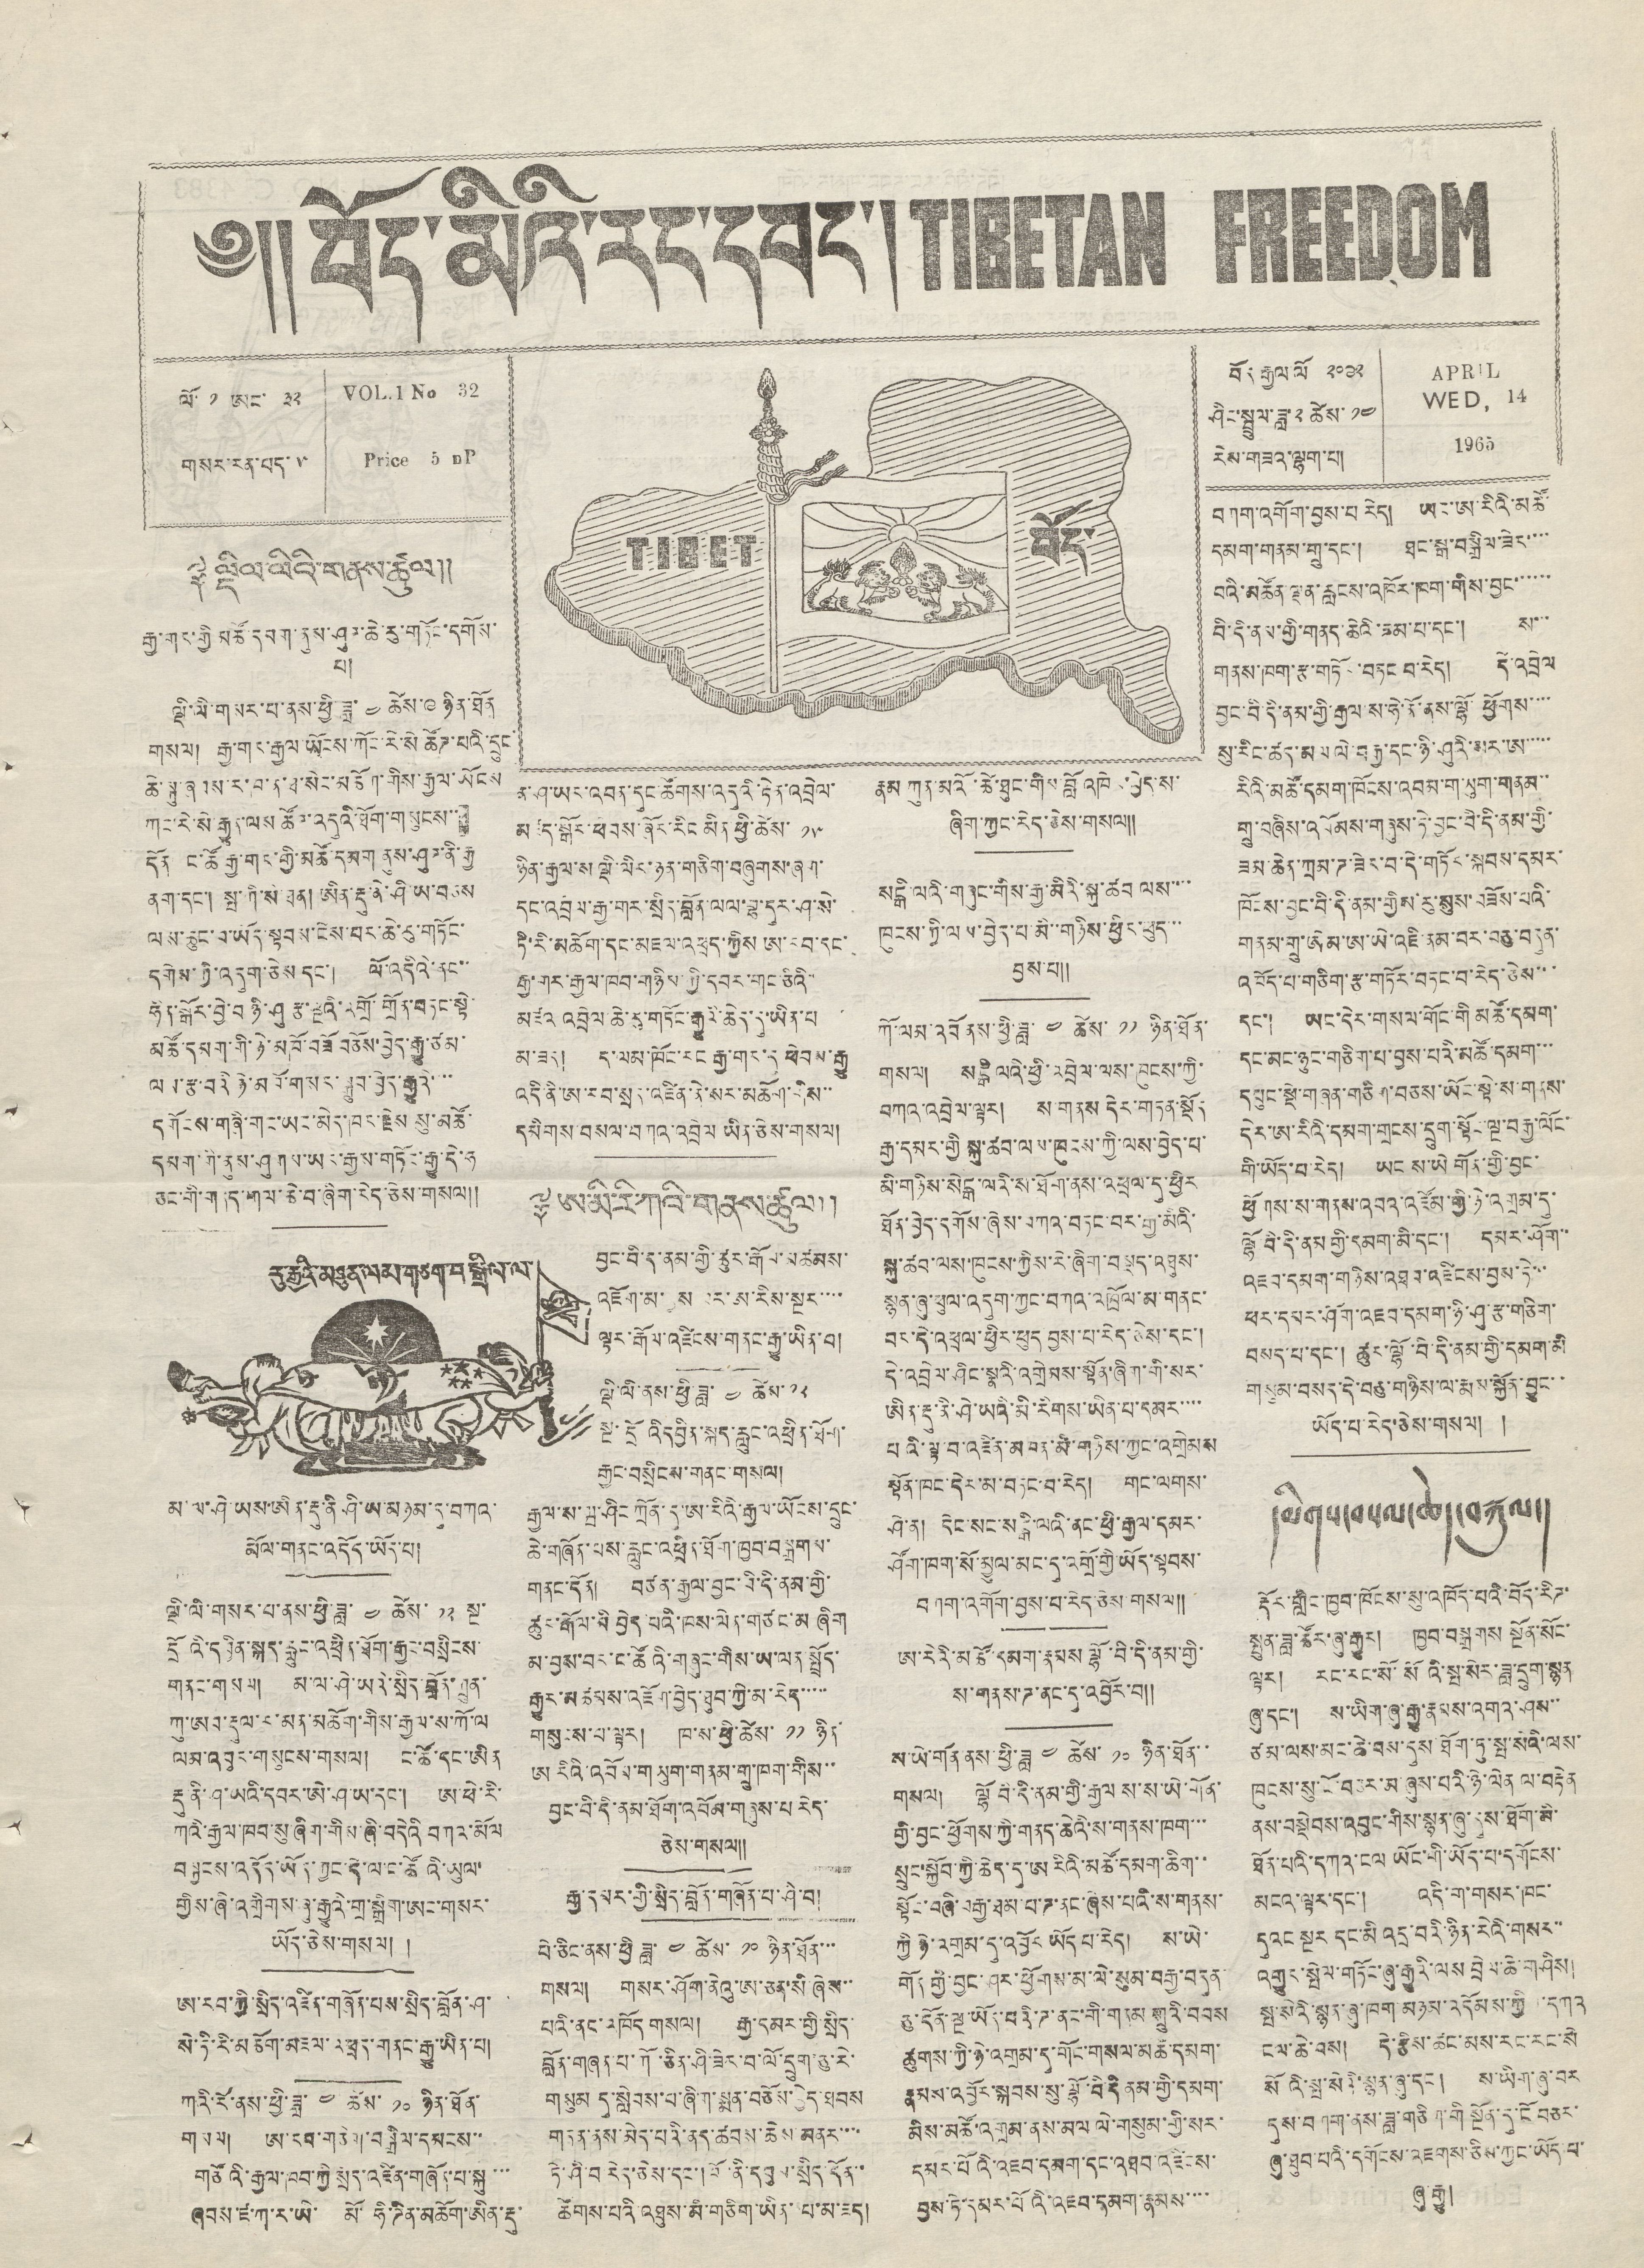༄།། བོད་མིའི་རང་དབང་། TIBETAN FREEDOM
TIBET བོད་
ལོ་ ༡ ཨང་ ༣༢
གསར་རན་པད་ ༥
VOL. 1 No 32
Price 5 nP
APRIL
WED, 14
1965
བོད་རྒྱལ་ལོ་ ༢༠༩༢
ཤིང་སྦྲུལ་ཟླ་༢ ཚེས་ ༡༤
རེས་གཟའ་ལྷག་པ།
༈ ལྡིལ་ལིའི་གནས་ཚུལ།།
རྒྱ་གར་གྱི མཚོ་དམག་ནུས་ཤུཌ་ཆེ་རུ་གཏོང་དགོས་
པ།
ལྡི་ལི་གསར་པ་ནས་ཕྱི་ཟླ་ ༤ ཚེས་༩ ཉིན་ཐོན
གསལ། རྒྱ་གར་རྒྱལ ཡོངས་ཀོང་རེ་སེ ཚོཌ་པའི་དྲུང
ཆེ་སྐུ་ཞབས་ར་ཁ་ན་ཐ་སེང་མཆོག་གིས་རྒྱལ་ཡོངས
ཀང་རེ་སེ་རྒྱུད་ལས་ཚོཌ་འདུའི་ཐོག་གསུངས་་
དོན ང་ཚོའི་རྒྱ་གར་གྱི་མཚོ་དམག ནུས་ཤུཌ་ནི་རྒྱ
ནག་དང་། སྤ་ཀི་སི་ཐན། ཨིན་རྡུ་ནེ་ཤི་ཡ་བཅས
ལས་ཆུང་བ་ཡོད་སྟབས་ངེས་པར་ཆེ་རུ་གཏོང་
དགེས་ཀྱི་འདུག་ཅེས དང་། ལོ་འདིའི་ནང་་
ཧིན་སྒོར་བྱེ་བ་ཉི་ཤུ རྩ་ལྔའི་འགྲོ་གྲོན་བཏང་སྟེ་
མཚོ་དམག་གི་ཉེ་མཁོ་བཟོ བཅོས་བྱེད་རྒྱུ་ཙམ་
ལས་རྩ་བའི ཉི་མ་ཁོ་གསར་སྒྲུབ་བྱེད་རྒྱུའི་་་་
དགོངས་གཞི་གང་ཡང་མེད་ཁར་རྗེས སུ་མཚོ་
དམག་གི་ནུས་ཤུགས་ཡར་རྒྱས་གཏོང་རྒྱུ་དེ་ཧ་
ཅང་གི་གནད་གལ་ཆེ་བ་ཞིག་རེད་ཅེས་གསལ།།
རུ་རྒྱའི་མཐུན་ལམ་གཙག་བསྒྲིལ་ལ་
མ་ལ་ཤེ་ཡས་ཨིན་རྡུ་ནི ཤི་ཡ་མཉམ་དུ་བཀའ་
མོལ་གནང་འདོད་ཡོད་པ།
ལྡི་ལི་གསར་པ་ནས་ཕྱི་ཟླ་ ༤ ཚེས་ ༡༢ སྔ་
དྲོ འི་དབྱིན་སྐད་རླུང་འཕྲིན་ཐོག་རྒྱང་བསྲིངས་
གནང་གསལ། མ་ལ་ཤེ་ཡའི་སྲིད་བློན་ཀྲུན་
ཀུ་ཨབ་རྡུལ་ར་མན་མཆོག་གིས་རྒྱལ་ས་ཀོ་ལ
ལམ་འབུལ་གསུངས་གསལ། །ང་ཚོ་དང་ཨིན
རྡུ ནི་ཤ་ཡའི་དབར་ཨེ་ཤ་ཡ་དང་། ཨ་ཕེ་རི་
ཀའི་རྒྱལ་ཁབ་སུ་ཞིག་གིས་ཞི་བདེའི བཀའ་མོལ
བསྐྱངས་འདོད་ཡོད་ཀྱང་དེ་ལ་ང་ཚོ འི་ཡུལ་
གྱིས་ཞི་འགྲིགས་ཞུ་རྒྱུའི་གྲ་སྒྲིག་ཨང་གསར་
ཡོད་ཅེས་གསལ། །
ཨ་རབ་ཀྱི་སྲིད་འཛིན་གཞོན་པས་སྲིད་བློན་ཤ་
སེ་ཏི་རི་མཆོག་མཇལ་འཕྲད་གནང་རྒྱུ་ཡིན་པ།
ཀའི་རོ་ནས་ཕྱི་ཟླ་ ༤ ཚེས་ ༡༠ ཉིན་ཐོན་
གསལ། ཨ་རབ་གཅིག་བསྒྲིལ་དམངས་་
གཙོ འི་རྒྱལ་ཁབ་ཀྱི་སྲིད་འཛིན་གཞོན་པ་སྐུ་་་
ཞབས་ཛ་ཀ་ར་ཡི་ མོ་ཧི་ཌིན་མཆོག་ཨིན་རྡུ་
ན་ཤ་ཡར་འབན་དུང་ཚོགས་འདུའི་རྟེན་འབྲེལ་
མཛད་སྒོར་ཕེབས་ཞོར་རིང་མིན་ཕྱི་ཚེས་ ༡༥
ཉིན་རྒྱལ་ས་ལྡི་ལིར་ཉན་གཅིག་བཞུགས་ཞག་
དང་འབྲེལ་རྒྱ་གར་སྲིད་བློན་ལལ་བྷ་དུར་ཤ་སེ་
ཏི་རི་མཆོག་དང་མཇལ་འཕྲད་ཀྱིས ཨ་རབ་དང་
རྒྱ་གར་རྒྱལ་ཁབ་གཉིས་ཀྱི་དབར་དང་ཅིའི་
མཛའ འབྲེལ་ཆེ་རུ་གཏོང་རྒྱུའི་ཆེད་དུ་ཡིན་པ
མ་ཟད། ད་ལམ་ཁོང་རང རྒྱ་གར་དུ ཕེབས་རྒྱུ་
འདི་ནི་ཨ་རབ་སྲན་འཛིན་ནེ་སར་མཆོག་གིས་་
དམིགས་བསལ་བཀའ་འབྲེལ ཡིན་ཅེས་གསལ།
༈ ཨ་མི་རི་ཀའི་གནས་ཚུལ།།
བྱང་བི་ད་ནམ་གྱི་ཚུར་རྒོལ་མཚམས་
འཇོག་མ་བྱས་ཐར་ཨ་རིས་སྔར་་་་
ལྟར་རྒོལ་འཛིངས་གནང་རྒྱུ་ཡིན་པ།
ལྡི་ལི་ནས་ཕྱི་ཟླ་ ༤ ཚེས་༡༢
སྔ་དྲོ འིདབྱིན་སྐད་རླུང་འཕྲིན་ཐོག་
རྒྱང་བསྲིངས་གནང་གསལ།
རྒྱལ་ས་ཝ་ཤིང་ཀྲོན་དུ་ཨ་རིའི་རྒྱལ་ཡོངས་དྲུང་
ཆེ་གཞོན་པས་རླུང་འཕྲིན་ཐོག་ཁྱབ་བསྒྲགས་
གནང་དོན། བཙན་རྒྱལ་བྱང་བི་དི་ནམ་གྱི་
ཚུར་རྒོལ་མི བྱེད་པའི་ཁས་ལེན་གཙང་མ ཞིག
མ་བྱས་བར་ང་ཚོའི་གཞུང་གིས་ཡ་ལན་སྤྲོད་
རྒྱུར་མཚམས་འཇོག་བྱེད་ཐུབ་ཀྱི་མ་རེད་་་་་
གསུངས་པ་ལྟར། ཁ་ས་ཕྱི་ཚེས་ ༡༡ ཉིན་
ཨ་རིའི་འབོམ་གཡུག་གནམ་གྲུ་ཁག་གིས་་
བྱང་བི་དི་ནམ་ཐོག་འབོམ་གཞུས་པ་རེད་
ཅེས་གསལ།།
རྒྱ་དམར་གྱི་སྲིད་བློན་གཞོན་པ་ཤི་བ།
པེ་ཅིང་ནས་ཕྱི ཟླ་ ༤ ཚེས་ ༡༠ ཉིན་ཐོན་་་
གསལ། གསར་ཤོག་ནེའུ་ཨ་ཅན་སི་ཞེས་་
པའི་ནང་འཁོད་གསལ། རྒྱ་དམར་གྱི་སྲིད་
བློན་གཞན་པ་ཀོ་ཅིན་ཤི་ཟེར་བ་ལོ་དྲུག་ཅུ་རེ་
གསུམ དུ་སླེབས་པ་ཞིག་སྨན་བཅོས་བྱེད་ཐབས
གཏན་ནས་མེད་པའི་ནད་ཚབས་ཆེས མནར་་་་
ཏེ་ཤི་བ་རེད་ཅེས་དང་།བོ་ནི་དབུས་སྲིད་དོན་་
ཚོགས་པའི་འཐུས་མི་གཅིག་ཡིན་པ་མ་ཟད།
རྣམ ཀུན་མའོ་ཚེ་ཐུང་གིས བློ འཁེར་བྱེད་ས་
ཞིག་ཀྱང་རེད་ཅེས་གསལ།།
སངྒི་ལའི་གཞུང་གིས་རྒྱ་མིའི་སྐུ་ཚབ ལས་་་་
ཁུངས་ཀྱི་ལས་བྱེད་པ་མི་་གཉིས་ཕྱིར་ཕུད་་་
བྱས་པ།།
ཀོ་ལམ་འབོ ནས་ཕྱི་ཟླ་ ༤ ཚེས་ ༡༡ ཉིན་ཐོན་
གསལ། སངྒི ལའི་ཕྱི་འབྲེལ་ལས་ཁུངས་ཀྱི་
བཀའ་འབྲེལ་ལྟར། ས་གནས དེར་གཏན་སྡོད
རྒྱ་དམར་གྱི་སྐུ་ཚབ་ལས་ཁུངས་ཀྱིས་ལས་བྱེད་པ་
མི་གཉིས་སེངྒ་ལའི་ས་ཐོག་ནས་འཕྲལ་དུ་ཕྱིར
ཐོན་བྱེད་དགོས་ཞེས་བཀའ་བཏང་བར་རྒྱ་མིའི་
སྐུ་ཚབ་ལས་ཁུངས་ཀྱིས་རེ་ཞིག་བསྡད་འཐུས་
སྙན་ཞུ་ཕུལ་འདུག་ཀྱང་བཀའ་འཁྲོལ་མ་གནང་
བར་དེ་འཕྲལ་ཕྱིར་ཕུད་བྱས་པ་རེད་ཅེས་དང་།
དེ་འབྲེལ་ཤིང་སྣའི་འགྲེམས་སྟོན་ཞིག་གི་སར་
ཨིན་རྡུའི་ནི་ཤེ་ཡའི་མི་རིགས་ཡིན་པ་དམར་་་་
པའི་ལྟ་བ་འཛིན་མཁན་མི་གཉིས་ཀྱང་འགྲེམས
སྟོན་ཁང་དེར་མ་བཏང་བ་རེད། གང་ལགས་
ཤེ་ན། དེང་སང་སངྒི་ལའི་ནང་ཕྱི་རྒྱལ་དམར་
ཤོག་ཁག་སོ་མྱུར་མང་དུ་འགྲོ་གྱི་ཡོད་སྟབས་
བཀག་འགོག་བྱས་པ་རེད་ཅེས་གསལ།།
ཨ་རིའི་མཚོ་དམག་རྣམས་ལྷོ་བི་དི་ནམ་གྱི་
ས་གནས་ཌ་ནང་དུ་འབྱོར་བ།།
ས་ཡེ་གོན ནས་ཕྱི་ཟླ་ ༤ ཚེས་ ༡༠ ཉིན་ཐོན་་
གསལ། ལྷོ བི་དི་ནམ་གྱི་རྒྱལ ས་ས་ཡེ་གོན་
གྱི་བྱང་ཕྱོགས་ཀྱི་གནད་ཆེའི་ས་གནས་ཁག་་་
སྲུང་སྐྱོབ་ཀྱི་ཆེད་དུ་ཨ་རིའི་མཚོ་དམག་ཆིག་་་
སྟོང་བཞི་བརྒྱ་ཐབ་པ་ཌ་ནང་ཞེས་པའི་ས་གནས་
ཀྱི ཉེ་འགྲམ་དུ་འབྱོར ཡོད་པ་རེད། ས་ཡེ་
གོན་གྱི་བྱང་ཤར་ཕྱོགས་མ་ལེ་སུམ་བརྒྱ་བདུན་
ཅུ་དོན་ལྔ་ཡོད་པའི་ཌ་ནང་གི་གནམ གྲུའི་བབས
ཚུགས་ཀྱི་ཉེ་འགྲམ་དུ་གོང་གསལ་མཚོ་དམག་
རྣམས་འབྱོར་སྐབས་སུ་ལྷོ་བི་དི ནམ་གྱི་དམག་
མིས་མཚོ་འགྲམ་ནས་མལ ལེ་གསུམ་གྱི་སར་
དམར་པོའི་འཇབ་དམག་དང་འཐབ་འཛིངས་
བྱས་ཏེ་དམར་པོའི་འཇབ་དམག་རྣམས་་་
བཀག་འགོག་བྱས་པ་རེད། ཡར་ཨ་རིའི་མཚོ་
དམག་གནམ་གྲུ་དང་། ཐང་སྒ་བསྒྲིལ་ཟེར་་་་
བའི་མཚོན་ལྡན་རླངས་འཁོར་ཁག་གིས་བྱང་་་་་་
བི་དི་ནམ་གྱི་གནད་ཆེའི་ཟམ་པ་དང་། ས་་
གནས་ཁག་རྩ་གཏོར་བཏང་བ་རེད། དེ་འབྲེལ
བྱང་བི་དི་ནམ་གྱི་རྒྱལ་ས་ཧེ་ནོ་ནས་ལྷོ་ཕྱོགས་་་་་
སུ་རིང་ཚད་མལ ལེ་བརྒྱ་དང་ཉི་ཤུའི་སར་ཨ་་་་་
རིའི་མཚོ་དམག་ཁོངས་འབམ་གཡུག་གནམ་་
གྲུ་བཞིས་འབོམས་གཞུས་ཏེ་བྱང་བི་དི་ནམ་གྱི་
ཟམ་ཆེན་ཀྲམ་ཌ་ཟེར་བ་དེ་གཏོར་སྐབས་དམར་
ཁོངས་བྱང་བི་དི་ནམ་གྱིས་རུ་སུས་བཟོས་པའི་
གནམ་གྲུ་ཨེམ་ཨ་ཡི་འཇི་ནམ་བར་བཅུ་བདུན་
འཁོད་པ་གཅིག་རྩ་གཏོར་བཏང་བ་རེད་ཅེས་་་
དང་། ཡང་དེར་གསལ་གོང་གི མཚོ་དམག་
དང་མང་ཉུང་གཅིག་པ་བྱས་པའི་མཚོ་དམག་་་
དཔུང་སྡེ་གཞན་གཅིག་བཅས་ཡོང་སྟེ་ས་གནས་
དེར་ཨ་རིའི་དམག་གྲངས་དྲུག་སྟོང་ལྔ་བརྒྱ་ལོང་
གི་ཡོད་པ་རེད། ཡང ས་ཡེ གོན་གྱི་བྱང་
ཕྱོགས་ས་གནས་འབའ་འཛོམ་གྱི་ཉེ་འགྲམ་དུ་
ལྷོ་བི་དི་ནམ་གྱི་དམག་མི་དང་། དམར་ཤོག་་
འཇབ་དམག་གཉིས་འཐབ་འཛིངས་བྱས་ཏེ་་་
ཕར་དམར་ཤོག་འཇབ་དམག་ཉི་ཤུ་རྩ་གཅིག་
བསད་པ་དང་། ཚུར་ལྷོ་བི་དི་ནམ་གྱི་དམག་མི
གསུམ་བསད་དེ་བཅུ་གཉིས་ལ་རྨས་སྐྱོན་བྱུང་་
ཡོད་པ་རེད་ཅེས་གསལ། །
དམིགས་བསལ་ཆེད་བསྐུལ།
རྡོར་གླིང་ཁྱབ་ཁོངས་སུ་འཁོད་པའི་བོད་རིཌ་
སྤུན་ཟླ་ཚོར་ཞུ་རྒྱུར། ཁྱབ་བསྒྲགས སྔོན་སོང་
ལྟར། རང་རང་སོ་སོའི་སྤ་སེར་ཟླ་དྲུག་སྙན
ཞུ་དང་། ས་ཡིག་ཞུ་རྒྱུ་རྣམས་འགའ་ཤས་་
ཙམ་ལས་མང་ཆེ་བས་དུས་ཐོག་ཏུ་སྤ་སེའི་ལས་
ཁུངས་སུ་ངོ་བཅར་མ་ཞུས་པའི་ཉེ་ལེན ལ་བརྟེན་
ནས་བསྡེབས་འབུང་གིས་སྙན་ཞུ་དུས་ཐོག་མི་
ཐོན་པའི་དཀའ་ངལ ཡོང་གི་ཡོད་པ་དགོངས་
མངའ་ལྟར་དང་། འདི་ག་གསར་ཁང་
དུའང སྔར དང་མི འདྲ་བའི་ཉིན་རེའི་གསར་་
འགྱུར་སྤེལ་གཏོང་ཞུ་རྒྱུའི་ལས་བྲེལ་ཆེ་གཤིས།
སྤ་སེའི་སྙན་ཞུ་ཁག་མཉམ་འདོམས་ཀྱིས་དཀའ
ངལ་ཆེ་བས། དེ་རྩིས་ཚང་མས་རང་རང་སོ
སོ འི་སྤ་སེའི་སྙན་ཞུ་དང་། ས་ཡིག་ཞུ་བར་
དུས་བཤག་ནས་ཟླ་གཅིག་གི་སྔོན་དུ་ངོ་བཅར་
ཞུ་ཐུབ་པའི་དགོངས་འཇགས་ཅིས་ཀྱང་ཡོད་པ་
ཞུ་རྒྱུ།
